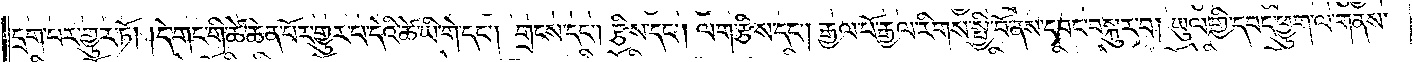དྲག་པར་གྱུར་ཏོ། །དེ་གང་གི་ཚེ་ཆེན་པོར་གྱུར་པ་དེའི་ཚེ་ཡི་གེ་དང༌། གྲངས་དང༌། རྩིས་དང༌། ལག་རྩིས་དང༌། རྒྱལ་པོ་རྒྱལ་རིགས་སྤྱི་བོ་ནས་དབང་བསྐུར་བ། ཡུལ་གྱི་དབང་ཕྱུག་ལ་གནས་
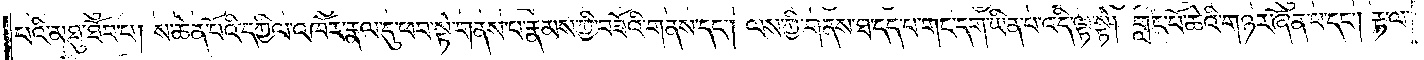པའི་མཐུ་ཐོབ་པ། ས་ཆེན་པོའི་དཀྱིལ་འཁོར་རྣལ་དུ་ཕབ་སྟེ་གནས་པ་རྣམས་ཀྱི་བཟོའི་གནས་དང༌། ལས་ཀྱི་གནས་ཐ་དད་པ་གང་དག་ཡིན་པ་འདི་ལྟ་སྟེ། གླང་པོ་ཆེའི་གཉར་ཞོན་པ་དང༌། རྟ་ལ་
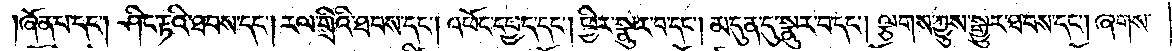ཞོན་པ་དང༌། ཤིང་རྟའི་ཐབས་དང༌། རལ་གྲིའི་ཐབས་དང༌། འཕོང་དཔྱད་དང༌། ཕྱིར་སྣུར་བ་དང༌། མདུན་དུ་སྣུར་བ་དང༌། ལྕགས་ཀྱུས་སྒྱུར་ཐབས་དང༌། ཞགས་
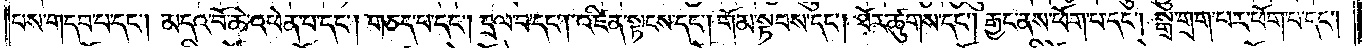པས་གདབ་པ་དང༌། མདའ་བོ་ཆེ་འཕེན་པ་དང༌། གཅད་པ་དང༌། དྲལ་བ་དང༌། འཛིན་སྟངས་དང༌། གོམ་སྟབས་དང༌། ཐོར་ཚུགས་དང༌། རྒྱང་ནས་ཕོག་པ་དང༌། སྒྲ་གྲག་པར་ཕོག་པ་དང༌།
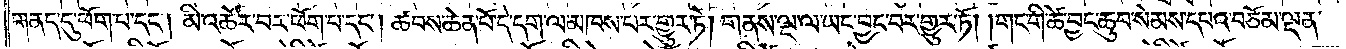གནད་དུ་ཕོག་པ་དང༌། མི་འཆོར་བར་ཕོག་པ་དང༌། ཚབས་ཆེན་པོ་དེ་དག་ལ་མཁས་པར་གྱུར་ཏེ། གནས་ལྔ་ལ་ཡང་བྱང་བར་གྱུར་ཏོ། །གང་གི་ཚེ་བྱང་ཆུབ་སེམས་དཔའ་བཅོམ་ལྡན་
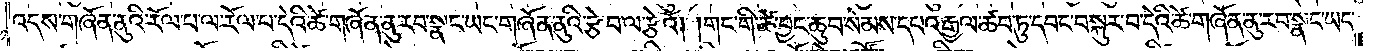འདས་གཞོན་ནུའི་རོལ་པ་ལ་རོལ་པ་དེའི་ཚེ་གཞོན་ནུ་རབ་སྣང་ཡང་གཞོན་ནུའི་རྩེ་བ་ལ་རྩེའོ། །གང་གི་ཚེ་བྱང་ཆུབ་སེམས་དཔའ་རྒྱལ་ཚབ་ཏུ་དབང་བསྐུར་བ་དེའི་ཚེ་གཞོན་ནུ་རབ་སྣང་ཡང་
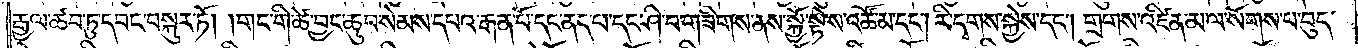རྒྱལ་ཚབ་ཏུ་དབང་བསྐུར་ཏོ། །གང་གི་ཚེ་བྱང་ཆུབ་སེམས་དཔའ་རྒན་པོ་དང་ནད་པ་དང་ཤི་བ་གཟིགས་ནས་སྐྱོ་སྟེ་ས་འཚོ་མ་དང༌། རི་དྭགས་སྐྱེས་དང༌། གྲགས་འཛིན་མ་ལ་སོགས་པ་བུད་
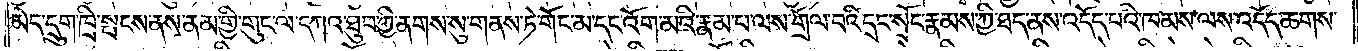མེད་དྲུག་ཁྲི་སྤངས་ནས་ནམ་གྱི་གུང་ལ་དཀའ་ཐུབ་ཀྱི་ནགས་སུ་གནས་ཏེ་གོང་མ་དང་འོག་མའི་རྣམ་པ་ལས་གྲོལ་བའི་དྲང་སྲོང་རྣམས་ཀྱི་ཐད་ནས་འདོད་པའི་ཁམས་ལས་འདོད་ཆགས་
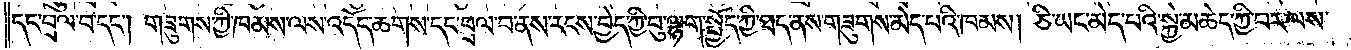དང་བྲལ་བ་དང༌། གཟུགས་ཀྱི་ཁམས་ལས་འདོད་ཆགས་དང་བྲལ་བ་ནས་རངས་བྱེད་ཀྱི་བུ་ལྷག་སྤྱོད་ཀྱི་ཐད་ནས་གཟུགས་མེད་པའི་ཁམས། ཅི་ཡང་མེད་པའི་སྐྱེ་མཆེད་ཀྱི་བར་ལས་
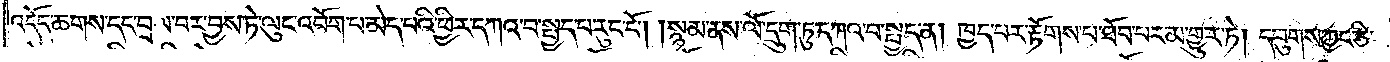འདོད་ཆགས་དང་བྲལ་བར་བྱས་ཏེ་ལུང་འབོག་པ་མེད་པའི་ཕྱིར་དཀའ་བ་སྤྱད་པ་རུང་ངོ༌། །སྙམ་ནས་ལོ་དྲུག་ཏུ་དཀའ་བ་སྤྱད་ན། ཁྱད་པར་རྟོགས་པ་ཐོབ་པར་མ་གྱུར་ཏེ། དབུགས་ཀྱང་ཅི་
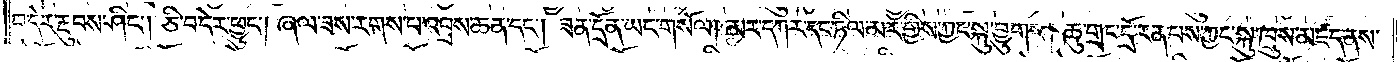བདེར་རྔུབས་ཤིང༌། ཅི་བདེར་ཕྱུང༌། ཞལ་ཟས་རགས་པ་འབྲས་ཆན་དང༌། ཟན་དྲོན་ཡང་གསོལ། མར་དཀར་དང་ཏིལ་མར་གྱིས་ཀྱང་སྐུ་བྱུགས། ཆུ་གྲང་དྲོ་རན་པས་ཀྱང་སྐུ་ཁྲུས་མཛད་ནས་
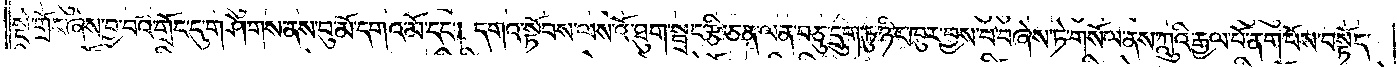སྡེ་གྲོང་ཞེས་བྱ་བའི་གྲོང་དུ་གཤེགས་ནས་བུ་མོ་དགའ་མོ་དང༌། དགའ་སྟོབས་ལས་འོ་ཐུག་སྦྲང་རྩི་ཅན་ལན་བཅུ་དྲུག་ཏུ་ཉིང་ཁུར་བྱས་པ་བཞེས་ཏེ་གསོལ་ནས་ཀླུའི་རྒྱལ་པོ་ནག་པོས་བསྟོད་
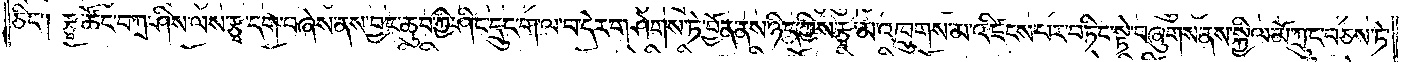ཅིང༌། རྩྭ་ཚོང་བཀྲ་ཤིས་ལས་རྩྭ་དག་བཞེས་ནས་བྱང་ཆུབ་ཀྱི་ཤིང་དྲུང་ག་ལ་བ་དེར་གཤེགས་ཏེ་བྱོན་ནས་ཉིད་ཀྱིས་རྩྭ་མ་འཁྲུགས་མ་འཛིངས་པར་བཏིང་སྟེ་བཞུགས་ནས་སྐྱིལ་མོ་ཀྲུང་བཅས་ཏེ་
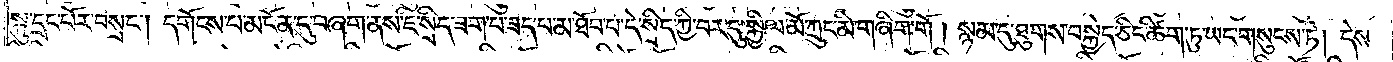སྐུ་དྲང་པོར་བསྲང༌། དགོངས་པ་མངོན་དུ་བཞག་ནས་ཇི་སྲིད་ཟག་པ་ཟད་པ་མ་ཐོབ་པ་དེ་སྲིད་ཀྱི་བར་དུ་སྐྱིལ་མོ་ཀྲུང་མི་གཞིག་གོ །སྙམ་དུ་ཐུགས་བསྐྱེད་ཅིང་ཚིག་ཏུ་ཡང་གསུངས་ཏེ། དེས་
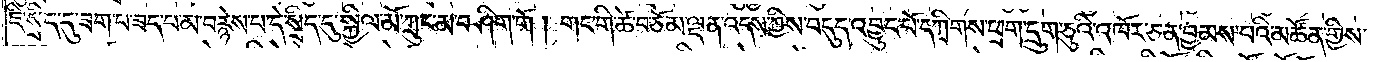ཇི་སྲིད་དུ་ཟག་པ་ཟད་པ་མ་བརྙེས་པ་དེ་སྲིད་དུ་སྐྱིལ་མོ་ཀྲུང་མ་བཤིག་གོ །གང་གི་ཚེ་བཅོམ་ལྡན་འདས་ཀྱིས་བདུད་འབྱུང་པོ་དཀྲིགས་ཕྲག་དྲུག་ཅུའི་འཁོར་ཅན་བྱམས་པའི་མཚོན་གྱིས་
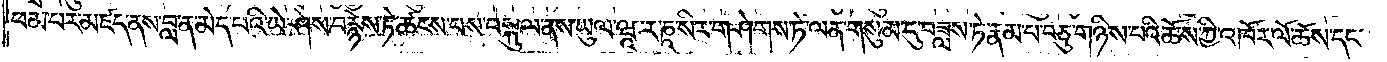ཕམ་པར་མཛད་ནས་བླ་ན་མེད་པའི་ཡེ་ཤེས་བརྙེས་ཏེ་ཚངས་པས་བསྐུལ་ནས་ཡུལ་ཝཱ་ར་ཎཱ་སིར་གཤེགས་ཏེ་ལན་གསུམ་དུ་བཟླས་ཏེ་རྣམ་པ་བཅུ་གཉིས་པའི་ཆོས་ཀྱི་འཁོར་ལོ་ཆོས་དང་
